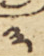༣
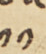༡༡
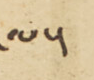ལ་།
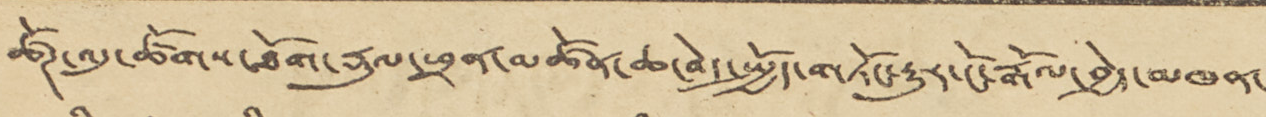ཚོཊ་འདུ་ཚོགས་ཐོག་རྡུལ་ཕྲན་མཚོན་ཆ་བེད་སྤྱོད་གཏོང་རྒྱུར་ངོ་རྒོལ་བྱེད་མཁན་
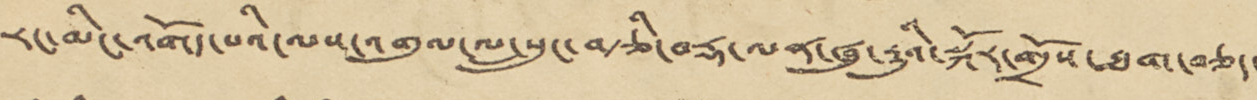རང་མིང་འགོད་པའི་ལས་འགུལ་ལ་སྲུང་བརྩི་བརྡ་ལན་ཞུ་རྒྱུའི་སྐོར་གྲོས་ཐག་བཅད་
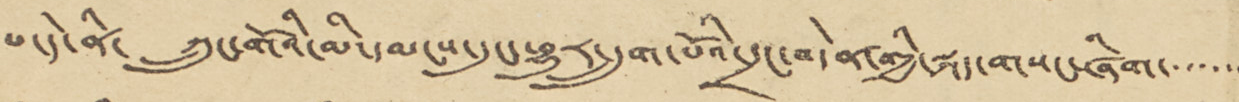པ་དེ་ནི་ ཀྲུང་གོའི་མི་དམངས་དུང་ཕྱུར་དྲུག་པོའི་དྲང་བདེན་གྱི་སྐད་གསང་ཞིག་་་་་་
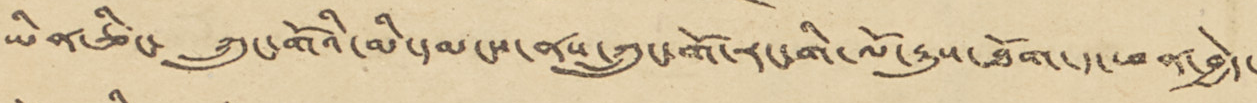ཡིན་ཅིང་ ཀྲུང་གོའི་མི་དམངས་ནས་ཀྲུང་གོ་རང་གི་ལོ་རྒྱུས་ཐོག་ད་ཕན་བྱེད་
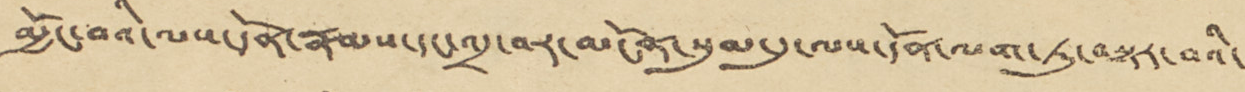མྱོང་བའི་ལས་དོན་རྣམས་དང་འདྲ་བར་མངོན་སུམ་དུ་ལས་དོན་ལག་ཏུ་བསྟར་བའི་
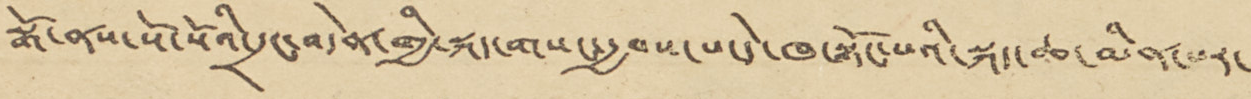སྒོ་ནས་སོ་སོའི་དྲང་བདེན་གྱི་སྐད་གསང་རྒྱབས་པ་དེ་ཁ་སྟོང་པའི་སྐད་ཆ་མིན་པར་
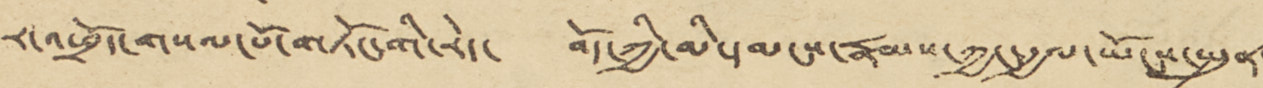ར་འཕྲོད་གསལ་པོ་གཏོང་གི་རེད་ བོད་ཀྱི་མི་དམངས་རྣམས་ཀྱང་རྒྱལ་ཡོངས་སྤུན་
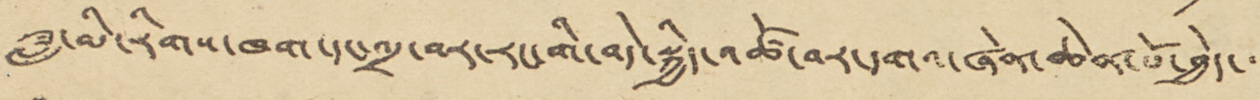ཟླ་མི་རིགས་ཁག་དང་འདྲ་བར་རང་གི་བདེ་སྐྱིད་འཚོ་བར་དགའ་ཞེན་ཆེན་པོ་བྱེད་་་
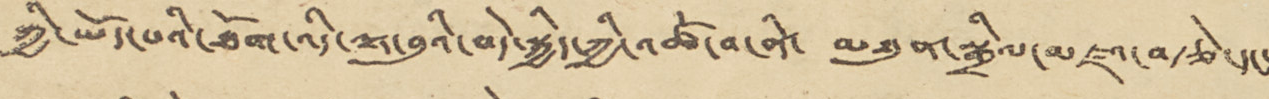ཀྱི་ཡོད་པའི་ཐོག་འདི་ལྟ་བུའི་བདེ་སྐྱིད་ཀྱི་འཚོ་བ་ནི་ མཐུན་སྒྲིལ་མཛའ་བརྩེ་དང་
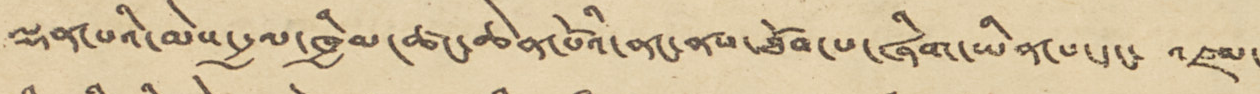ལྡན་པའི་མེས་རྒྱལ་ཁྱིམ་ཚང་ཆེན་པོའི་ནང་ནས་ཐོབ་པ་ཞིག་ཡིན་པ་དང་ འཛམ་
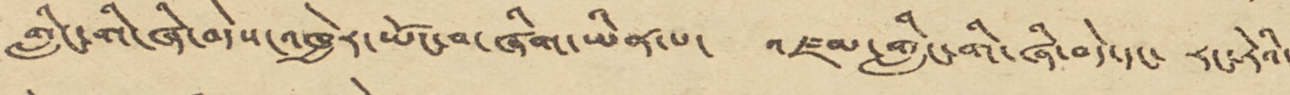གླིང་གི་ཞི་བདེས་འཁྱེར་ཡོང་བ་ཞིག་ཡིན་པ་ འཛམ་གླིང་གི་ཞི་བདེ་དང་ རང་རེའི་
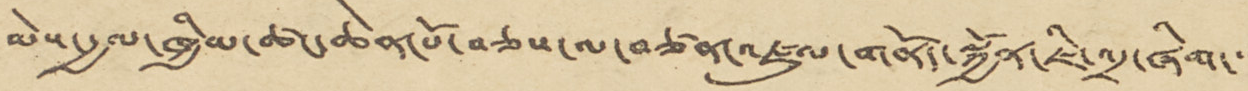མེས་རྒྱལ་ཁྱིམ་ཚང་ཆེན་པོ་བཅས་ལ་བཙན་འཛུལ་གནོད་སྐྱོན་ཇི་འདྲ་ཞིག་་་
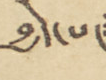བྱེད་པ་
